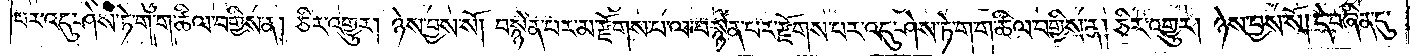པར་འདུ་ཤེས་ཏེ་ག་ག་ཚིལ་བགྱིས་ན། ཅིར་འགྱུར། ཉེས་བྱས་སོ༎ བསྙེན་པར་མ་རྫོགས་པ་ལ་བསྙེན་པར་རྫོགས་པར་འདུ་ཤེས་ཏེ་ག་ག་ཚིལ་བགྱིས་ན། ཅིར་འགྱུར། ཉེས་བྱས་སོ། །དེ་བཞིན་དུ་
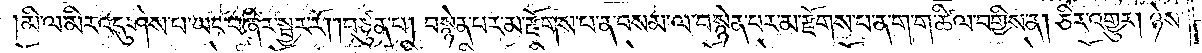མི་ལ་མིར་འདུ་ཤེས་པ་ཡང་བཞིར་སྦྱར་རོ། བཙུན་པ། བསྙེན་པར་མ་རྫོགས་པ་ན་བསམ་ལ་བསྙེན་པར་མ་རྫོགས་པ་ན་ག་ག་ཚིལ་བགྱིས་ན། ཅིར་འགྱུར། ཉེས་
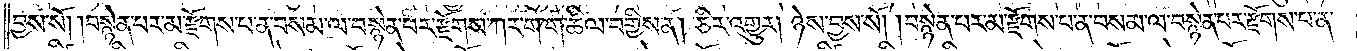བྱས་སོ། །བསྙེན་པར་མ་རྫོགས་པ་ན་བསམ་ལ་བསྙེན་པར་རྫོགས་ཀར་ག་ག་ཚིལ་བགྱིས་ན། ཅིར་འགྱུར། ཉེས་བྱས་སོ། །བསྙེན་པར་མ་རྫོགས་པ་ན་བསམ་ལ་བསྙེན་པར་རྫོགས་པ་ན་
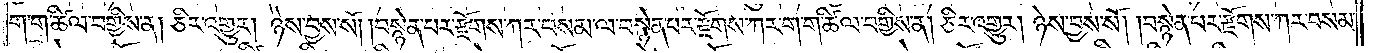ག་ག་ཚིལ་བགྱིས་ན། ཅིར་འགྱུར། ཉེས་བྱས་སོ། །བསྙེན་པར་རྫོགས་ཀར་བསམ་ལ་བསྙེན་པར་རྫོགས་ཀར་ག་ག་ཚིལ་བགྱིས་ན། ཅིར་འགྱུར། ཉེས་བྱས་སོ། །བསྙེན་པར་རྫོགས་ཀར་བསམ་
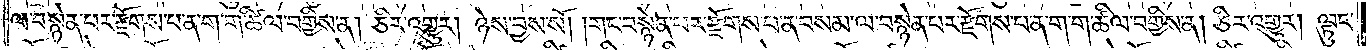ལ་བསྙེན་པར་རྫོགས་པ་ན་ག་ག་ཚིལ་བགྱིས་ན། ཅིར་འགྱུར། ཉེས་བྱས་སོ། །གང་བསྙེན་པར་རྫོགས་པ་ན་བསམ་ལ་བསྙེན་པར་རྫོགས་པ་ན་ག་ག་ཚིལ་བགྱིས་ན། ཅིར་འགྱུར། ལྟུང་
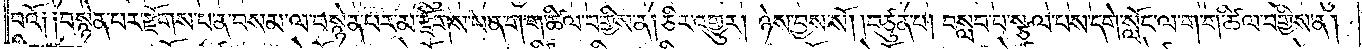བའོ༑ ༑བསྙེན་པར་རྫོགས་པ་ན་བསམ་ལ་བསྙེན་པར་མ་རྫོགས་པ་ན་ག་ག་ཚིལ་བགྱིས་ན། ཅིར་འགྱུར། ཉེས་བྱས་སོ། །བཙུན་པ། བསླབ་པ་སྩལ་པས་དགེ་སློང་ལ་ག་ག་ཚིལ་བགྱིས་ན།
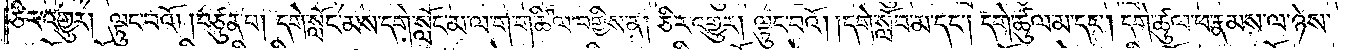ཅིར་འགྱུར། ལྟུང་བའོ། །བཙུན་པ། དགེ་སློང་མས་དགེ་སློང་མ་ལ་ག་ག་ཚིལ་བགྱིས་ན། ཅིར་འགྱུར། ལྟུང་བའོ། །དགེ་སློབ་མ་དང༌། དགེ་ཚུལ་ཕ་རྣམས་ལ་ཉེས་
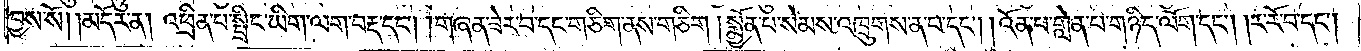བྱས་སོ།    །མདོར་ན། འཕྲིན་པ་སྤྲིང་ཡིག་ལག་བརྡ་དང༌། །གཞན་ཟེར་བ་དང་གཅིག་ནས་གཅིག །སྨྱོན་པ་སེམས་འཁྲུགས་ན་བ་དང༌། །འོན་པ་གླེན་པ་གཉིད་ལོག་དང༌། །ར་རོ་བ་དང༌།
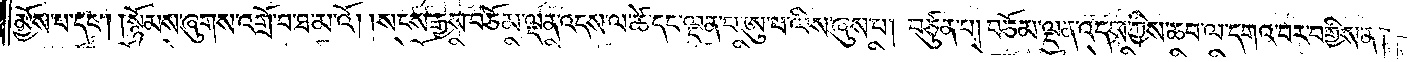མྱོས་པ་དང༌། །སྙོམས་ཞུགས་འགྲོ་བ་ཐ་མའོ། །སངས་རྒྱས་བཅོམ་ལྡན་འདས་ལ་ཚེ་དང་ལྡན་པ་ཨུ་པ་ལིས་ཞུས་པ། བཙུན་པ། བཅོམ་ལྡན་འདས་ཀྱིས་ཆབ་ལ་དགའ་བར་བགྱིས་ན་
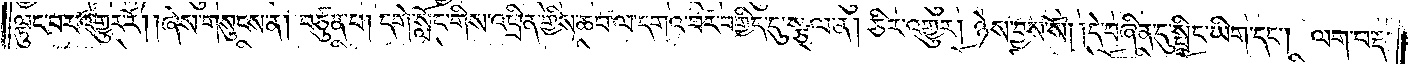ལྟུང་བར་འགྱུར་རོ། །ཞེས་གསུངས་ན། བཙུན་པ། དགེ་སློང་གིས་འཕྲིན་གྱིས་ཆབ་ལ་དགའ་བར་བགྱིད་དུ་སྩལ་ན། ཅིར་འགྱུར། ཉེས་བྱས་སོ། །དེ་བཞིན་དུ་སྤྲིང་ཡིག་དང༌། ལག་བརྡ་
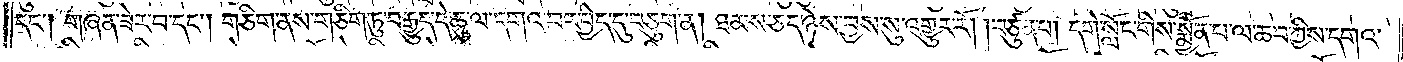དང༌། གཞན་ཟེར་བ་དང༌། གཅིག་ནས་གཅིག་ཏུ་བརྒྱུད་དེ་ཆུ་ལ་དགའ་བར་བྱེད་དུ་བཅུག་ན། ཐམས་ཅད་ཉེས་བྱས་སུ་འགྱུར་རོ། །བཙུན་པ། དགེ་སློང་གིས་སྨྱོན་པ་ལ་ཆབ་ཀྱིས་དགའ་
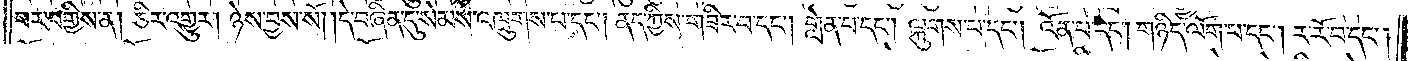བར་བགྱིས་ན། ཅིར་འགྱུར། ཉེས་བྱས་སོ། །དེ་བཞིན་དུ་སེམས་འཁྲུགས་པ་དང༌། ནད་ཀྱིས་གཟིར་བ་དང༌། གླེན་པ་དང༌། ལྐུགས་པ་དང༌། འོན་པ་དང༌། གཉིད་ལོག་པ་དང༌། ར་རོ་བ་དང༌།
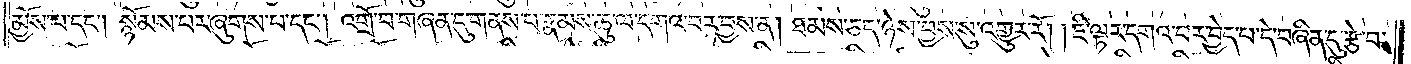མྱོས་པ་དང༌། སྙོམས་པར་ཞུགས་པ་དང༌། འགྲོ་བ་གཞན་དུ་གནས་པ་རྣམས་ཆུ་ལ་དགའ་བར་བྱས་ན། ཐམས་ཅད་ཉེས་བྱས་སུ་འགྱུར་རོ། །ཇི་ལྟར་དགའ་བར་བྱེད་པ་དེ་བཞིན་དུ་རྩེ་བ་
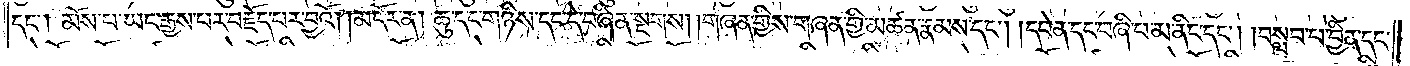དང༌། མོས་པ་ཡང་རྒྱས་པར་བརྗོད་པར་བྱའོ། །མདོར་ན། ཆུ་དང་གཉིས་དང་དེ་བཞིན་བསྔགས། །གཞན་གྱིས་གཞན་གྱི་མཚན་རྣམས་དང༌། །དབེན་དང་བཞི་པ་མ་ནིང་དང༌། །བསླབ་པ་བྱིན་དང་
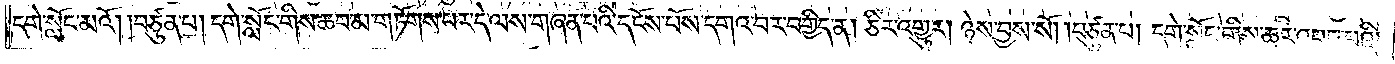དགེ་སློང་མའོ། །བཙུན་པ། དགེ་སློང་གིས་ཆབ་མ་གཏོགས་པར་དེ་ལས་གཞན་པའི་དངོས་པོས་དགའ་བར་བགྱིད་ན། ཅིར་འགྱུར། ཉེས་བྱས་སོ། །བཙུན་པ། དགེ་སློང་གིས་ཆར་འབབ་པའི་
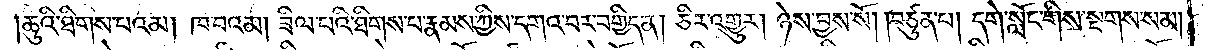ཆུའི་ཐིགས་པའམ། ཁ་བའམ། ཟིལ་བའི་ཐིགས་པ་རྣམས་ཀྱིས་དགའ་བར་བགྱིད་ན། ཅིར་འགྱུར། ཉེས་བྱས་སོ། །བཙུན་པ། དགེ་སློང་གིས་སྔགས་སམ།
